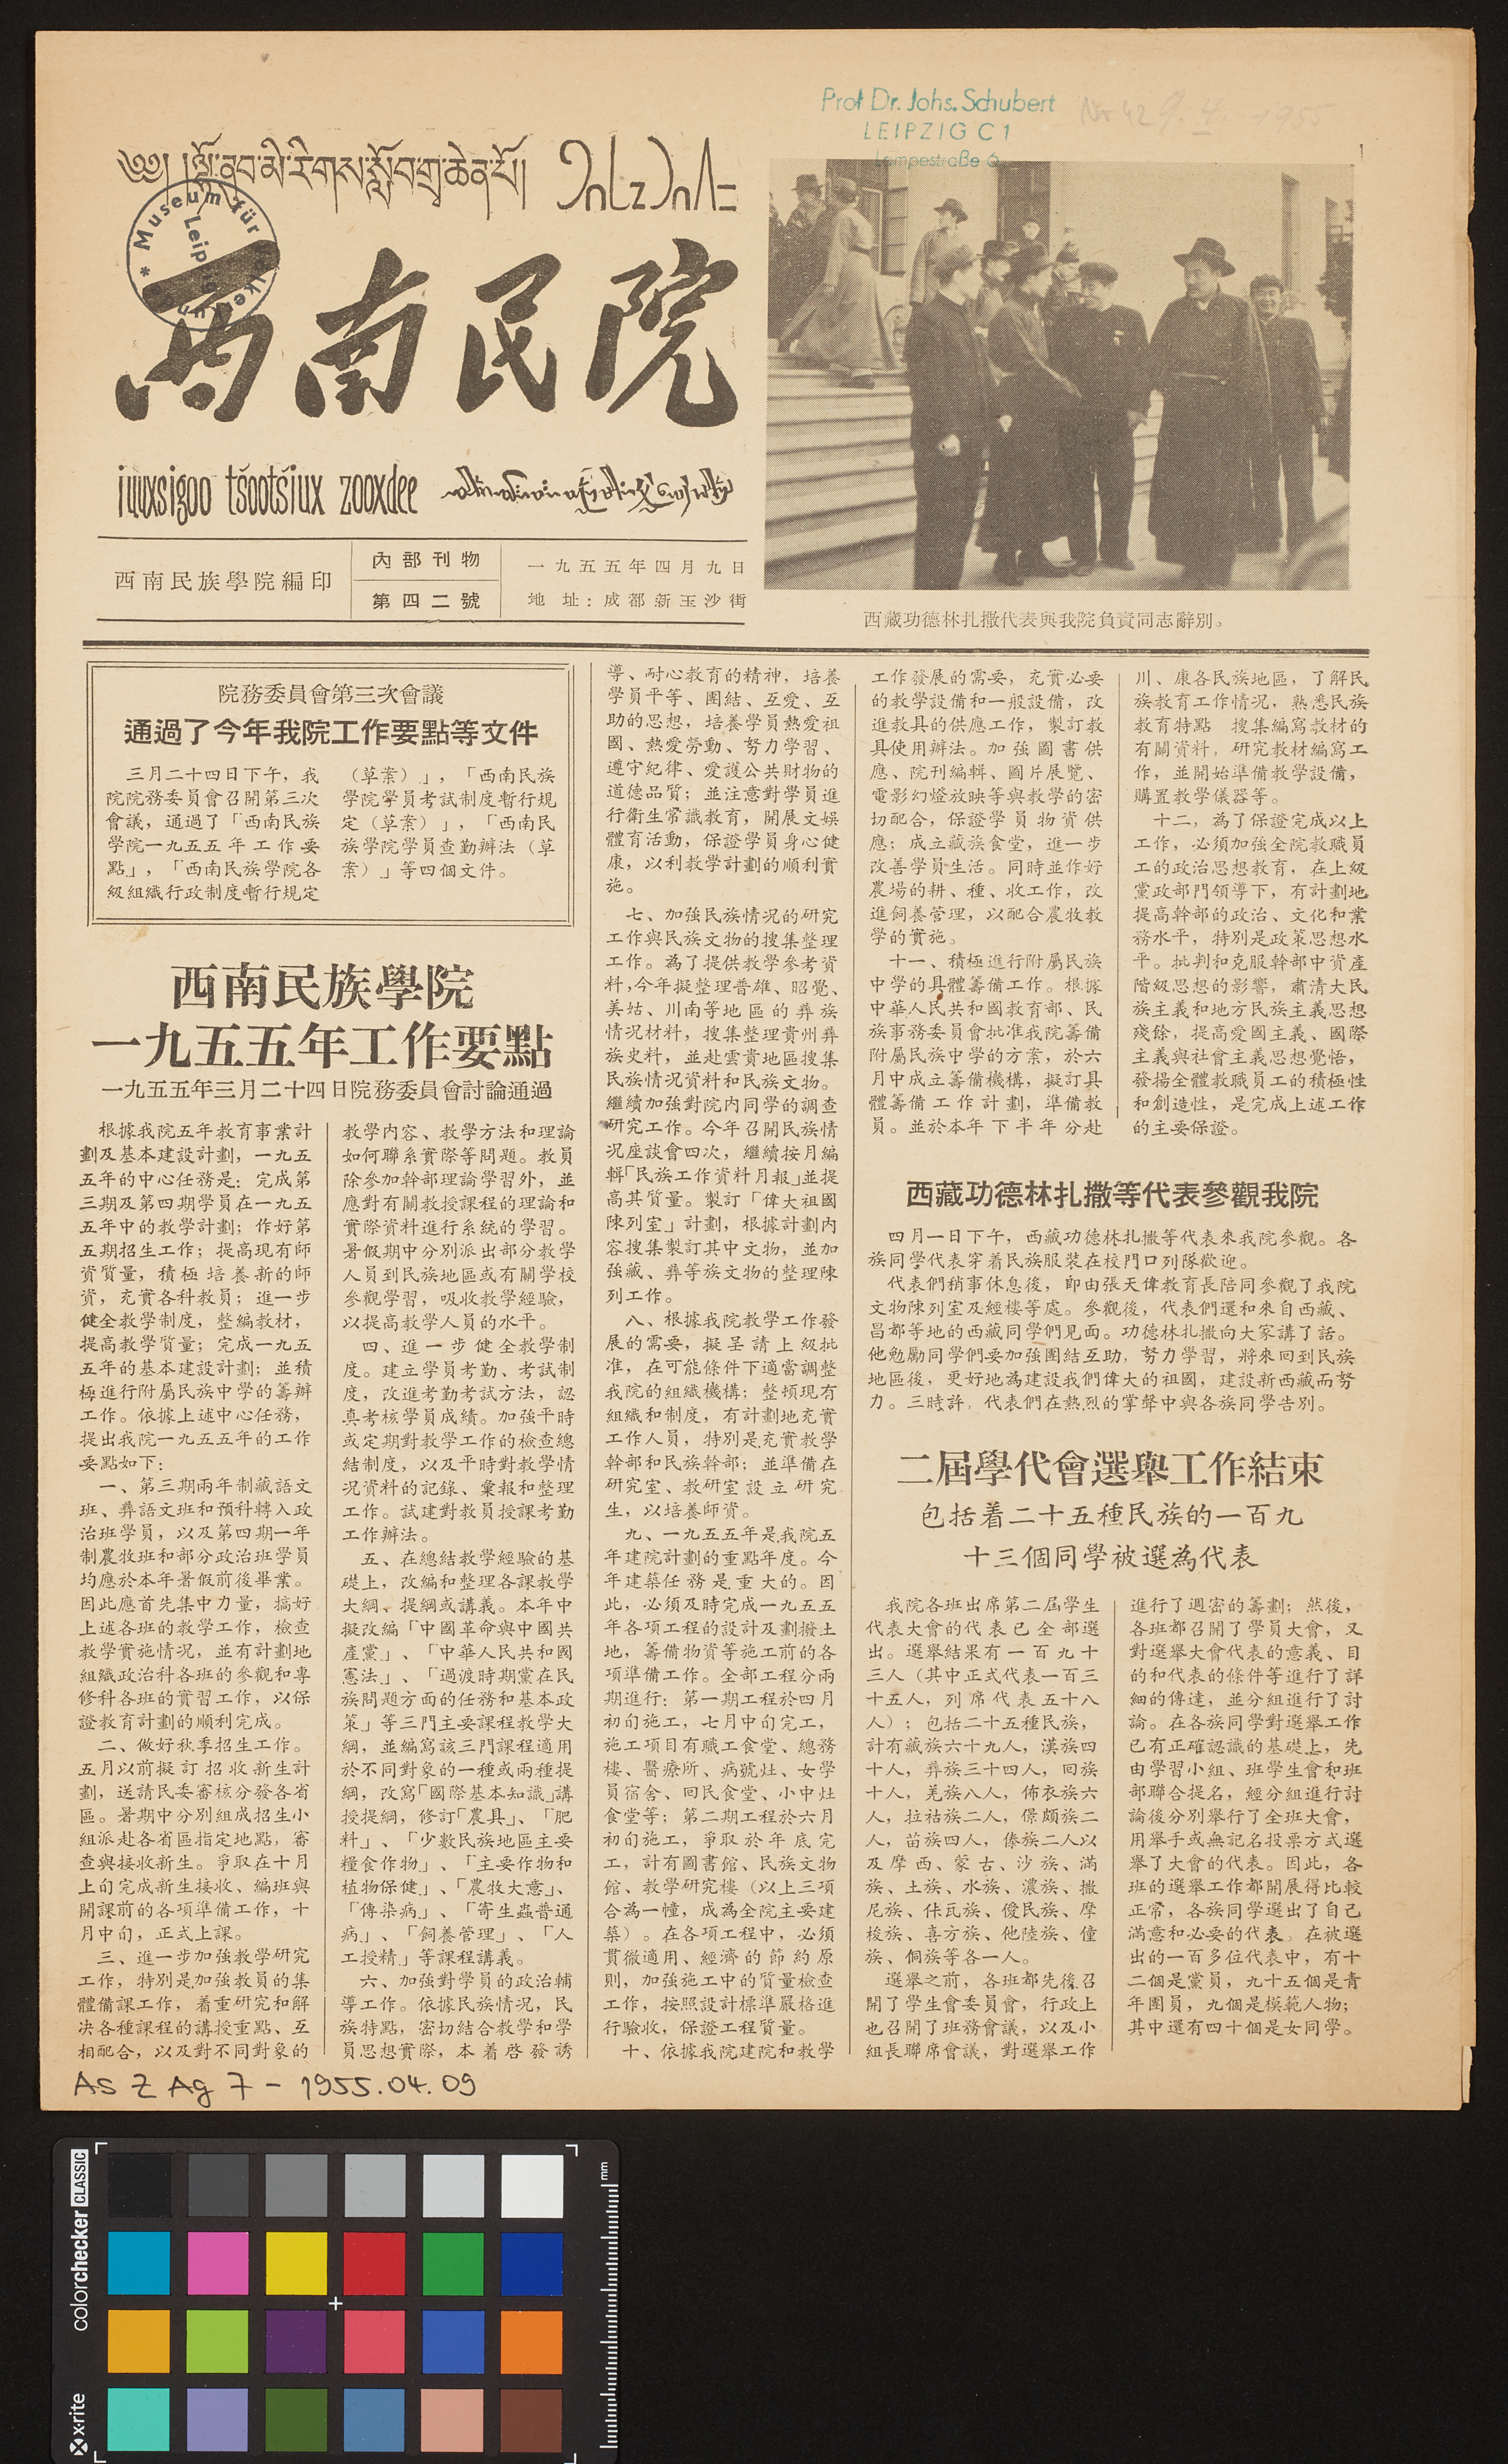༄༅། །ལྷོ་ནུབ་མི་རིགས་སློབ་གྲྭ་ཆེན་པོ།
西南民院
iuuxsigoo ts'oots'iux zooxdee
西南民族學院編印
內部刊物
第四二號
一九五五年四月九日
地址：成都新玉沙街
西藏功德林扎撒代表與我院負責同志辭別。
院務委員會第三次會議
通過了今年我院工作要點等文件
三月二十四下午，我
院院務委員會召開第三次
會議，通過了「西南民族
學院一九五五年工作要
點」，「西南民族學院各
級組織行政制度暫行規定
（草案）」，「西南民族
學院學員攷試制度暫行規
定（草案）」，「西南民
族學院學員查勤辦法（草
案）」等四個文件。
西南民族學院
一九五五年工作要點
一九五五年三月二十四日院務委員會討論通過
根據我院五念教育事業計
劃及基本建設計劃，一九五
五年的中心任務是：完成第
三期及第四期學員在一九五
五年中的教學計劃；作好第
五期招生工作；提高現有師
資質量，積極培養新的師
資，充實各科教員；進一步
健全教學制度，整編教材，
提高教學質量；完成一九五
五年的基本建設計劃；並積
極進行附屬民族中學的籌辦
工作。依據上述中心任務，
提出我院一九五五年的工作
要點如下：
一、第三期兩年制藏語文
班、彝語文班和預科轉入政
治班學員，以及第四期一年
制農牧班和部分政治班學員
均應於本年暑假前後畢業。
因此應首先集中力量，搞好
上述各班的教學工作，檢查
教學實施情況，並有計劃地
組織政治科各班的參觀和專
修科各班的實習工作，以保
證教育計畫的順利完成。
二、作好秋季招生工作。
五月以前擬定招收新生計
劃，送請民委審核分發各省
區。暑期中分別組成招生小
組派赴各省區指定地點，審
查與接收新生。爭取在十月
上旬完成新生接收、編班與
開課前的各項準備工作，十
月中旬，正式上課。
三、進一步加強教學研究
工作，特別是加強教員的集
體備課工作，着重研究和解
决各種課程的講授重點、互
相配合，以及對不同對象的
教學內容、教學方法和理論
如何聯繫實際等問題。教員
除參加幹部理論學習外，並
應對有關教授課程的理論和
實際資料進行系統的學習。
暑假期中分別派出部分教學
人員到民族地區或有關學校
參觀學習，吸收教學經驗，
以提高教學人員的水平。
四、進一步健全教學制
度。建立學員考勤、考試制
度，改進考勤考試方法，認
真考核學員成績。加強平時
或定期對教學工作的檢查總
結制度，以及平時對教學情
况資料的紀錄、彙報和整理
工作。試建對教員授課考勤
工作辦法。
五、在總結教學經驗的基
礎上，改編和整理各課教學
大綱、提綱或講義。本年中
擬改編「中國革命與中國共
產黨」、「中華人民共和國
憲法」、「過渡時期黨在民
族問題方面的任務和基本政
策」等三門主要課程教學大
綱，並編寫該三門課程適用
於不同對象的一種或兩種提
綱，改寫「國際基本知識」講
授提綱，修訂「農具」、「肥
料」、「少數民族地區主要
糧食作物」、「主要作物和
植物保健」、「農牧大意」、
「傳染病」、「寄生蟲普通
病」、「飼養管理」、「人
工授精」等課程講義。
六、加強對學員的政治輔
導工作。依據民族情况，民
族特點，密切結合教學和學
員思想實際，本着啓發誘
導、耐心教育的精神，培養
學員平等、團結、互愛、互
助的思想，培養學員熱愛祖
國、熱愛勞動、努力學習、
遵守紀律、愛護公共財物的
道德品質；並注意對學員進
行衛生常識敎育，開展文娛
體育活動，保證學員身心健
康，以利教學計劃的順利實
施。
七、加強民族情況的研究
工作與民族文物的搜集整理
工作。爲了提供教學參考資
料，今年擬整理普雄、昭覺、
美姑、川南等地區的彝族
情況材料，搜集整理貴州彝
族史料，並赴雲貴地區搜集
民族情況資料和民族文物。
繼續加強對院內同學的調查
研究工作。今年召開民族情
況座談會四次，繼續按月編
輯「民族工作資料月報」並提
高其質量。制訂「偉大祖國
陳列室」計劃，根據計劃內
容搜集制訂其中文物，並加
強藏、彝等族文物的整理陳
列工作。
八、根據我院教學工作發
展的需要，擬呈請上級批
准，在可能條件下適當調整
我院的組織機構；整頓現有
組織和制度，有計劃地充實
工作人員，特別是充實教學
幹部和民族幹部；並準備在
研究室、教研室設立研究
生，以培養師資。
九、一九五五年是我院五
年建院計劃的重點年度。今
年建築任務是重大的。因
此，必須及時完成一九五五
年各項工程的設計及劃撥土
地，籌備物資等施工前的各
項準備工作。全部工程分兩
期進行：第一期工程於四月
初旬施工，七月中旬完工，
施工項目有職工食堂、總務
樓、醫療所、病號灶、女學
員宿舍、囘民食堂、中小灶
食堂等；第二期工程於六月
初旬施工，爭取於年底完
工，計有圖書館、民族文物
館、教學研究樓（以上三項
合爲一幢，成爲全院主要建
築）。在各項工程中，必須
貫徹適用、經濟的節約原
則，加強施工中的質量檢查
工作，按照設計標準嚴格進
行驗收，保證工程質量。
十、依據我院建院和教學
工作發展的需要，充實必要
的教學設備和一般設備，改
進教具的供應工作，制訂教
具使用辦法。加強圖書供
應、院刊編輯、圖片展覽、
電影幻燈放映等與教學的密
切配合，保證學員物資供
應；成立藏族食堂，進一步
改善學員生活。同時並作好
農場的耕、種、收工作，改
進飼養管理，以配合農牧教
學的實施。
十一、積極進行附屬民族
中學的具體籌備工作。根據
中華人民共和國教育部、民
族事務委員會批准我院籌備
附屬民族中學的方案，於六
月中成立籌備機構，擬訂具
體籌備工作計劃，準備教
員。並於本年下半年分赴
川、康各民族地區，了解民
族教育工作情況，熟悉民族
教育特點，搜集編寫教材的
有關資料，研究教材編寫工
作，並開始準備教學設備，
購置教學儀器等。
十二，爲了保證完成以上
工作，必須加強全院教職員
工的政治思想教育，在上級
黨政部門領導下，有計劃地
提高幹部的政治、文化和業
務水平，特別是政策思想水
平。批判和克服幹部中資產
階級思想的影響，肅清大民
族主義和地方民族主義思想
殘餘，提高愛國主義、國際
主義與社會主義思想覺悟，
發揚全體教職員工的積極性
和創造性，是完成上述工作
的主要保證。
西藏功德林扎撒等代表參觀我院
四月一日下午，西藏功德林扎撒等代表來我院參觀。各
族同學代表穿着民族服裝在校門口列隊歡迎。
代表們稍事休息後，即由張天偉教育長陪同參觀了我院
文物陳列室及經樓等處。參觀後，代表們還和來自西藏、
昌都等地的西藏同學們見面。功德林扎撒向大家講了話。
他勉勵同學們要加強團結互助，努力學習，將來囘到民族
地區後，更好地爲建設我們偉大的祖國，建設新西藏而努
力。三時許，代表們在熱烈的掌聲中與各族同學告別。
二屆學代會選舉工作結束
包括着二十五種民族的一百九
十三個同學被選爲代表
我院各班出席第二屆學生
代表大會的代表已全部選
出。選舉結果有一百九十
三人（其中正式代表一百三
十五人，列席代表五十八
人）；包括二十五種民族，
計有藏族六十九人，漢族四
十人，彝族三十四人，囘族
十人，羌族八人，佈衣族六
人，拉祜族二人，景頗族二
人，苗族四人，傣族二人以
及，摩西、蒙古、沙族、滿
族、土族、水族、濃族、撒
尼族、佧瓦族、僾民族、摩
梭族、喜方族、他陸族、僮
族、侗族等各一人。
選舉之前，各班都先後召
開了學生會委員會，行政上
也召開了班務會議，以及小
組長聯席會議，對選舉工作
進行了週密的籌劃；然後，
各班都召開了學員大會，又
對選舉大會代表的意義、目
的和代表的條件等進行了詳
細的傳達，並分組進行了討
論。在各族同學對選舉工作
已有正確認識的基礎上，先
由學習小組、班學生會和班
部聯合提名，經分組進行討
論後分別舉行了全班大會，
用舉手或無記名投票方式選
舉了大會的代表。因此，各
班的選舉工作都開展得比較
正常，各族同學選出了自己
滿意和必要的代表。在被選
出的一百多位代表中，有十
二個是黨員，九十五個是青
年團員，九個是模範人物；
其中還有四十個是女同學。
